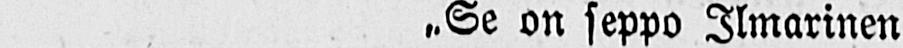˶Se on seppo Ilmarinen
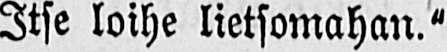Itse loihe lietsomahan."
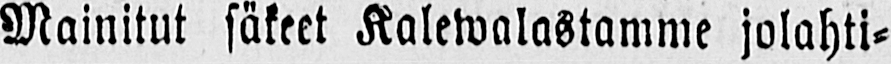Mainitut säkeet Kalewalastamme jolahti-
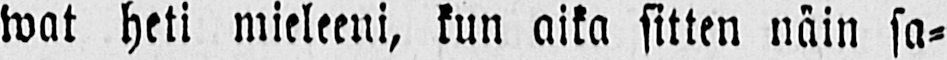wat heti mieleeni, kun aika sitten näin sa-
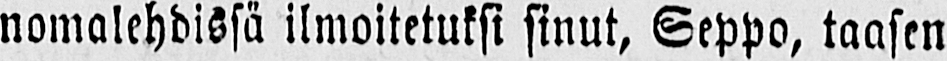nomalehdissä ilmoitetuksi sinut, Seppo, taasen
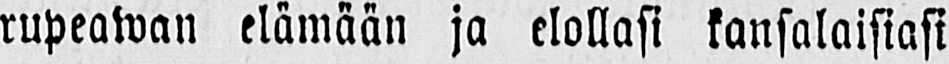rupeawan elämään ja elollasi kansalaisiasi
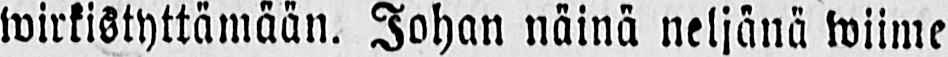wirkistyttämään. Johan näinä neljänä wiime
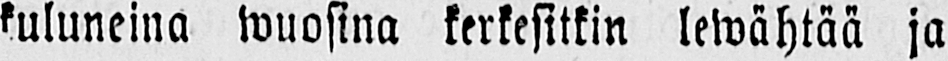kuluneina wuosina kerkesitkin lewähtää ja
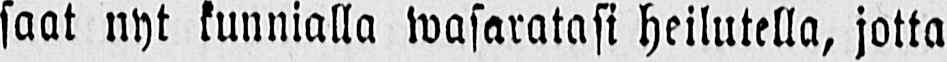saat nyt kunnialla wasaratasi heilutella, jotta
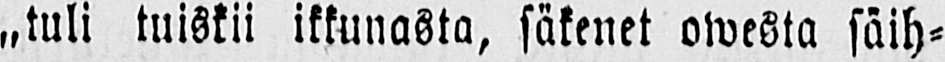„tuli tuiskii ikkunasta, säkenet owesta säih-
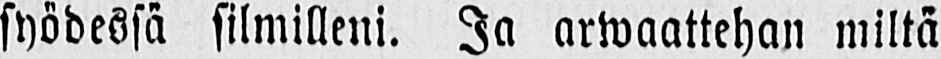syödessä silmilleni. Ja arwaattehan miltä
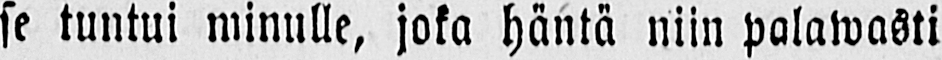se tuntui minulle, joka häntä niin palatwasti
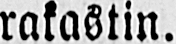rakastin.
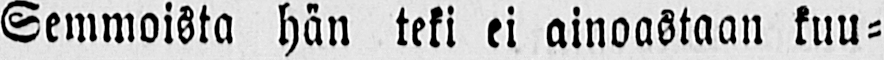Semmoista hän teki ei ainoastaan kuu-
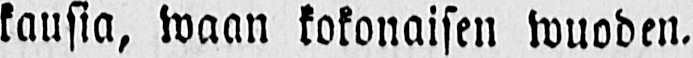kausia, waan kokonaisen wuoden.
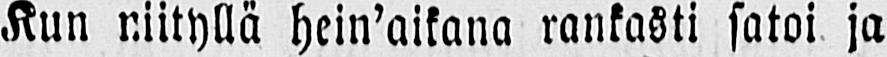Kun niityllä hein'aikana rankasti satoi ja
